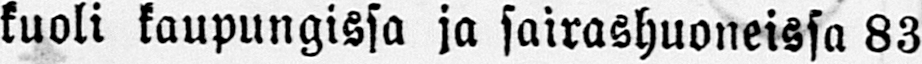kuoli kaupungissa ja sairashuoneissa 83
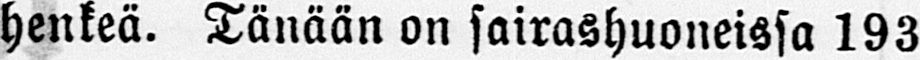henkeä. Tänään on sairashuoneissa 193
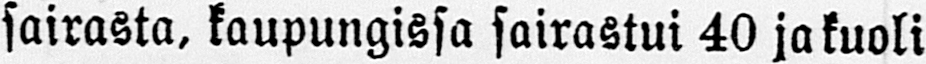sairasta, kaupungissa sairastui 40 ja kuoli
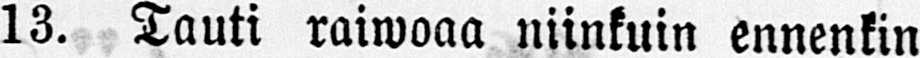13. Tauti raiwoaa niinkuin ennenkin
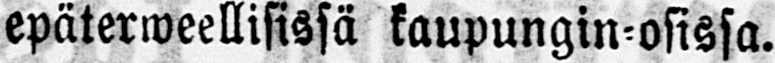epäterweellisissä kaupungin-osissa.
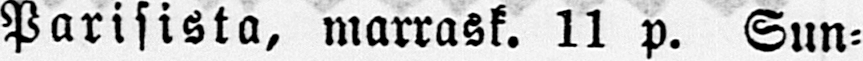Parisista, marrask. 11 p. Sun-
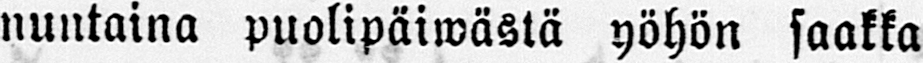nuntaina puolipäiwästä yöhön saakka
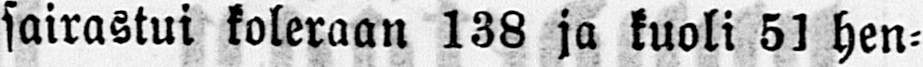sairastui koleraan 138 ja kuoli 51 hen-
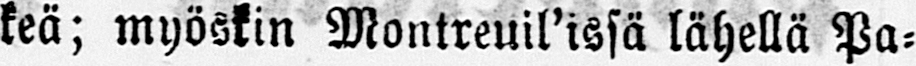keä; myöskin Montreuil'issä lähellä Pa-
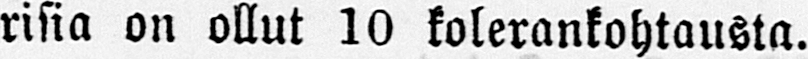risia on ollut 10 kolerankohtausta.
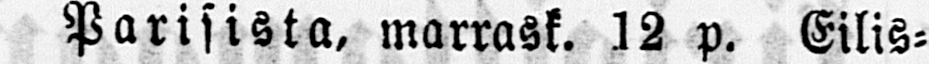Parisista, marrask. 12 p. Eilis-
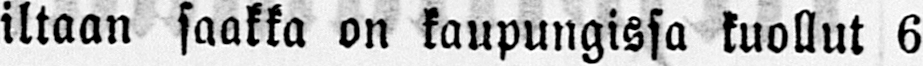iltaan saakka on kaupungissa kuollut 6
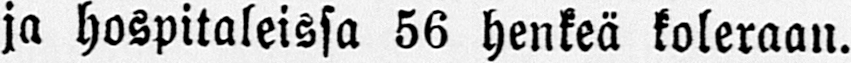ja hospitaleissa 56 henkeä koleraan.
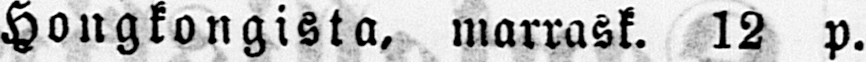Hongkongista, marrask. 12 p.
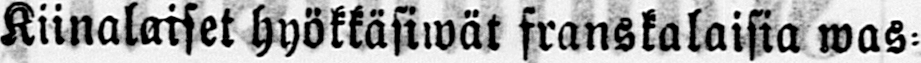Kiinalaiset hyökkäsiwät franskalaisia was-
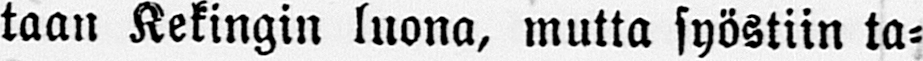taan Kekingin luona, mutta syöstiin ta-
